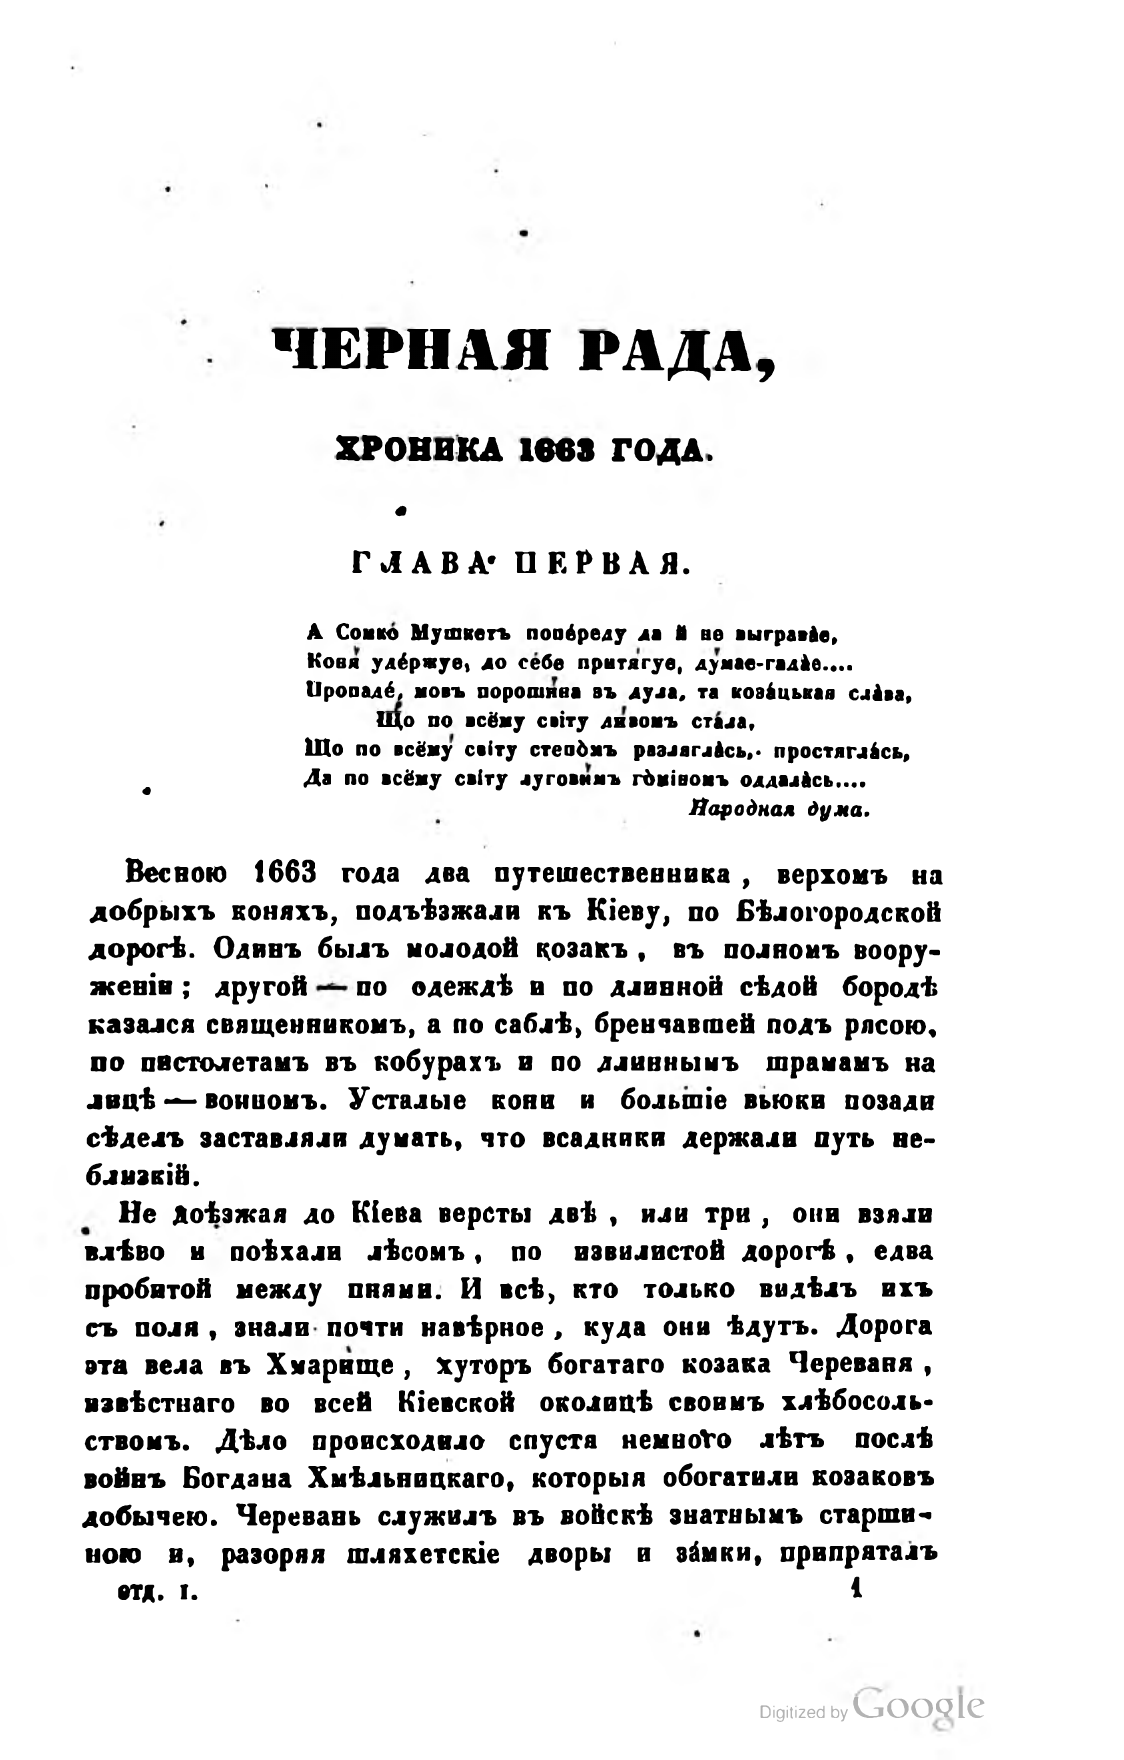ЧЕРНАЯ РАДА,
ХРОНИКА 1663 ГОДА.
ГЛАВА ПЕРВАЯ.
А Сомко Мушкетъ попереду да й не выгравае,
Коня удержуе, до себе притягуе, думае-гадае... 
Пропаде, мовъ порошина зъ дула, та козацькая слава, 
Що по всёму свиту дивомъ стала,
Що по всёму свиту степомъ разляглась, простяглась,
Да по всёму свиту луговимъ гоминомъ оддалась…
Народная дума.
Весною 1663 года два путешественника, верхомъ на добрыхъ коняхъ, подъѣзжали къ Кіеву, по Бѣлогородской дорогѣ. Одинъ былъ молодой козакъ, въ полномъ вооруженіи; другой — по одеждѣ и по длинной сѣдой бородѣ казался священникомъ, а по саблѣ, бренчавшей подъ рясою, по пистолетамъ въ кобурахъ и по длиннымъ шрамамъ на лицѣ — воиномъ. Усталые кони и большіе вьюки позади сѣделъ заставляли думать, что всадники держали путь неблизкій.
Не доѣзжая до Кіева версты двѣ, или три, они взяли влѣво и поѣхали лѣсомъ, по извилистой дорогѣ, едва пробитой между пнями. И всѣ, кто только видѣлъ ихъ съ поля, знали почти навѣрное, куда они ѣдутъ. Дорога эта вела въ Хмарище, хуторъ богатаго козака Череваня, извѣстнаго во всей Кіевской околицѣ своимъ хлѣбосольствомъ. Дѣло происходило спустя немного лѣтъ послѣ войнъ Богдана Хмѣльницкаго, которыя обогатили Козаковъ добычею. Черевань служилъ въ войскѣ знатнымъ старшиною и, разоряя шляхетскіе дворы и замки, припряталъ
отд. I.                                                         1
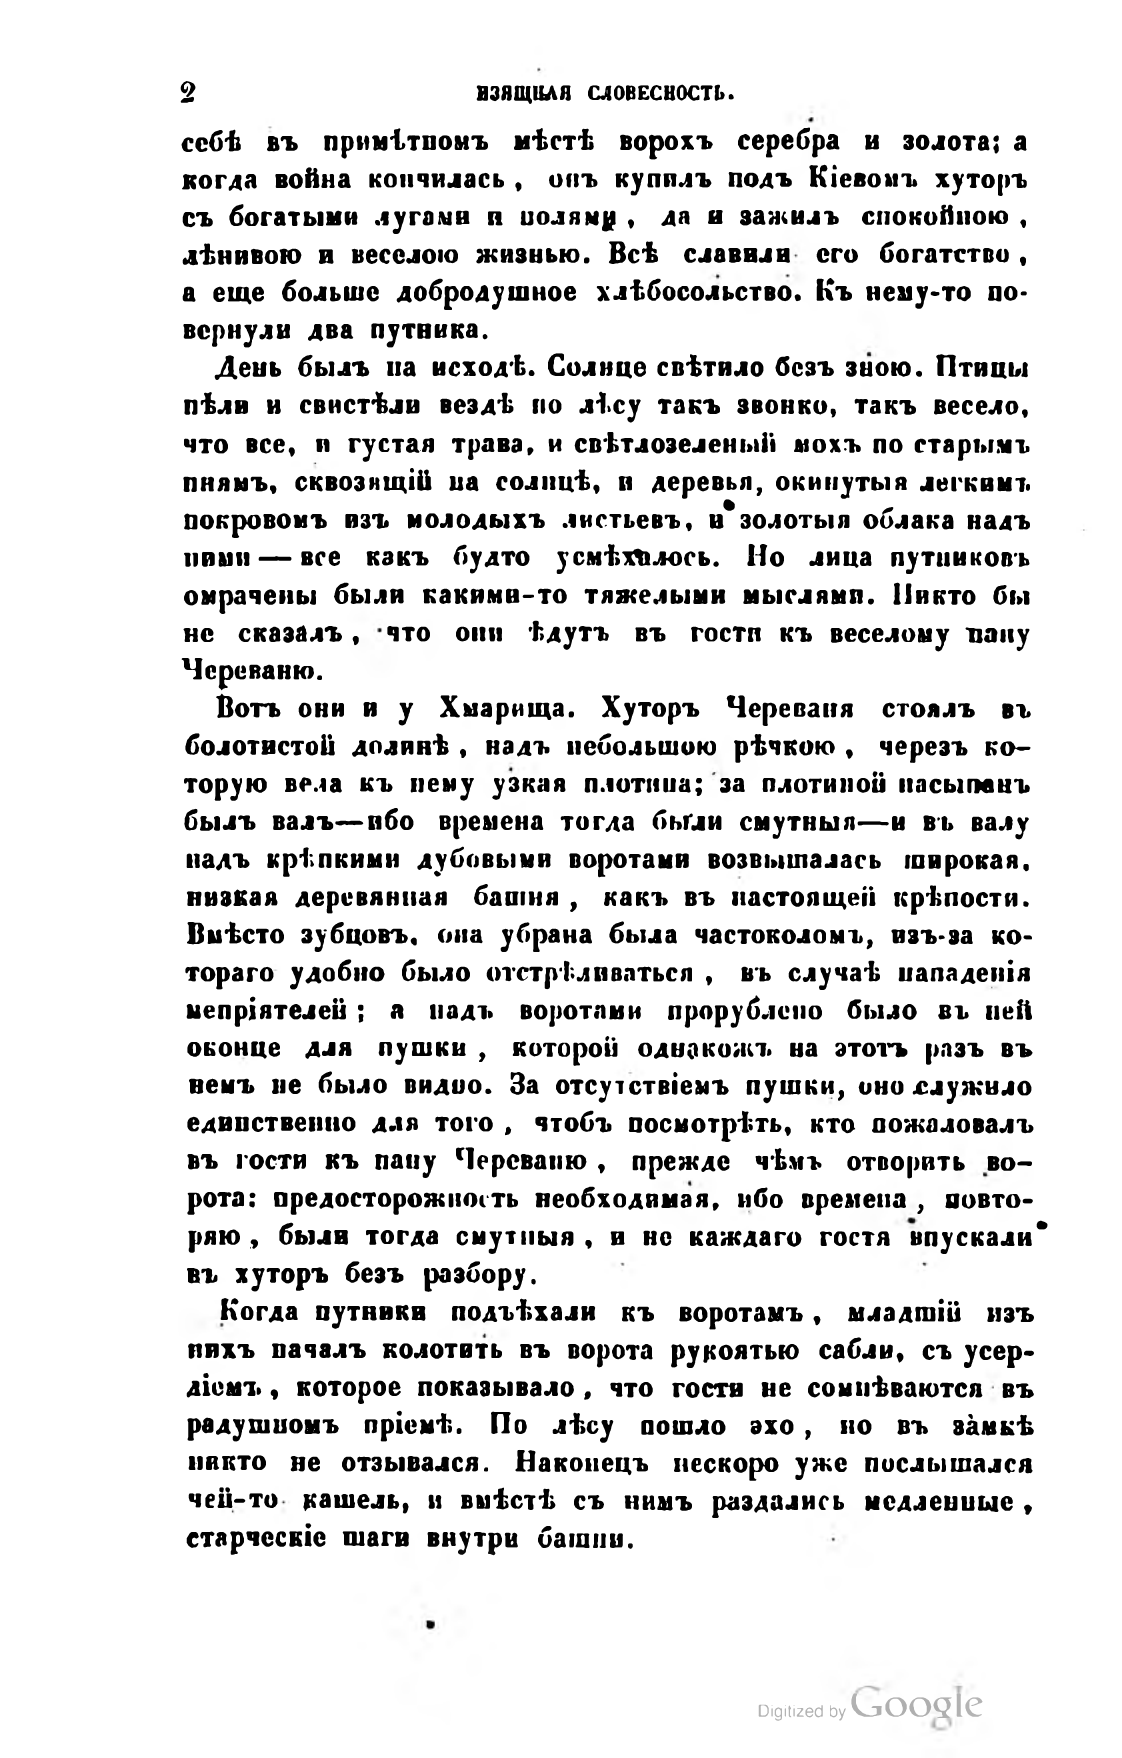2                    ИЗЯЩНАЯ СЛОВЕСНОСТЬ.
себѣ въ примѣтномъ мѣстѣ ворохъ серебра и золота; а когда война кончилась, онъ купилъ подъ Кіевомъ хуторъ съ богатыми лугами и полями, да и зажилъ спокойною, лѣнивою и веселою жизнью. Всѣ славили его богатство, а еще больше добродушное хлѣбосольство. Къ нему-то повернули два путника.
День былъ на исходѣ. Солнце свѣтило безъ зною. Птицы пѣли и свистѣли вездѣ по лѣсу такъ звонко, такъ весело, что все, и густая трава, и свѣтлозеленый мохъ по старымъ пнямъ, сквозящій на солнцѣ, и деревья, окинутыя легкимъ покровомъ изъ молодыхъ листьевъ, и золотыя облака надъ ними — все какъ будто усмѣхалось. Но лица путниковъ омрачены были какими-то тяжелыми мыслями. Никто бы не сказалъ, что они ѣдутъ въ гости къ веселому пану Череваню.
Вотъ они и у Хмарища. Хуторъ Череваня стоялъ въ болотистой долинѣ, надъ небольшою рѣчкою, черезъ которую вела къ нему узкая плотина; за плотиной насыпанъ былъ валъ — ибо времена тогда были смутныя — и въ валу надъ крѣпкими дубовыми воротами возвышалась широкая, низкая деревянная башня, какъ въ настоящей крѣпости. Вмѣсто зубцовъ, она убрана была частоколомъ, изъ-за котораго удобно было отстрѣливаться, въ случаѣ нападенія непріятелей; а надъ воротами прорублено было въ ней оконце для пушки, которой однакожъ на этотъ разъ въ немъ не было видно. За отсутствіемъ пушки, оно служило единственно для того, чтобъ посмотрѣть, кто пожаловалъ въ гости къ пану Череваню, прежде чѣмъ отворить ворота: предосторожность необходимая, ибо времена, повторяю, были тогда смутныя, и не каждаго гостя впускали въ хуторъ безъ разбору.
Когда путники подъѣхали къ воротамъ, младшій изъ нихъ началъ колотить въ ворота рукоятью сабли, съ усердіемъ, которое показывало, что гости не сомнѣваются въ радушномъ пріемѣ. По лѣсу пошло эхо, но въ замкѣ никто не отзывался. Наконецъ нескоро уже послышался чей-то кашель, и вмѣстѣ съ нимъ раздались медленные, старческіе шаги внутри башни.
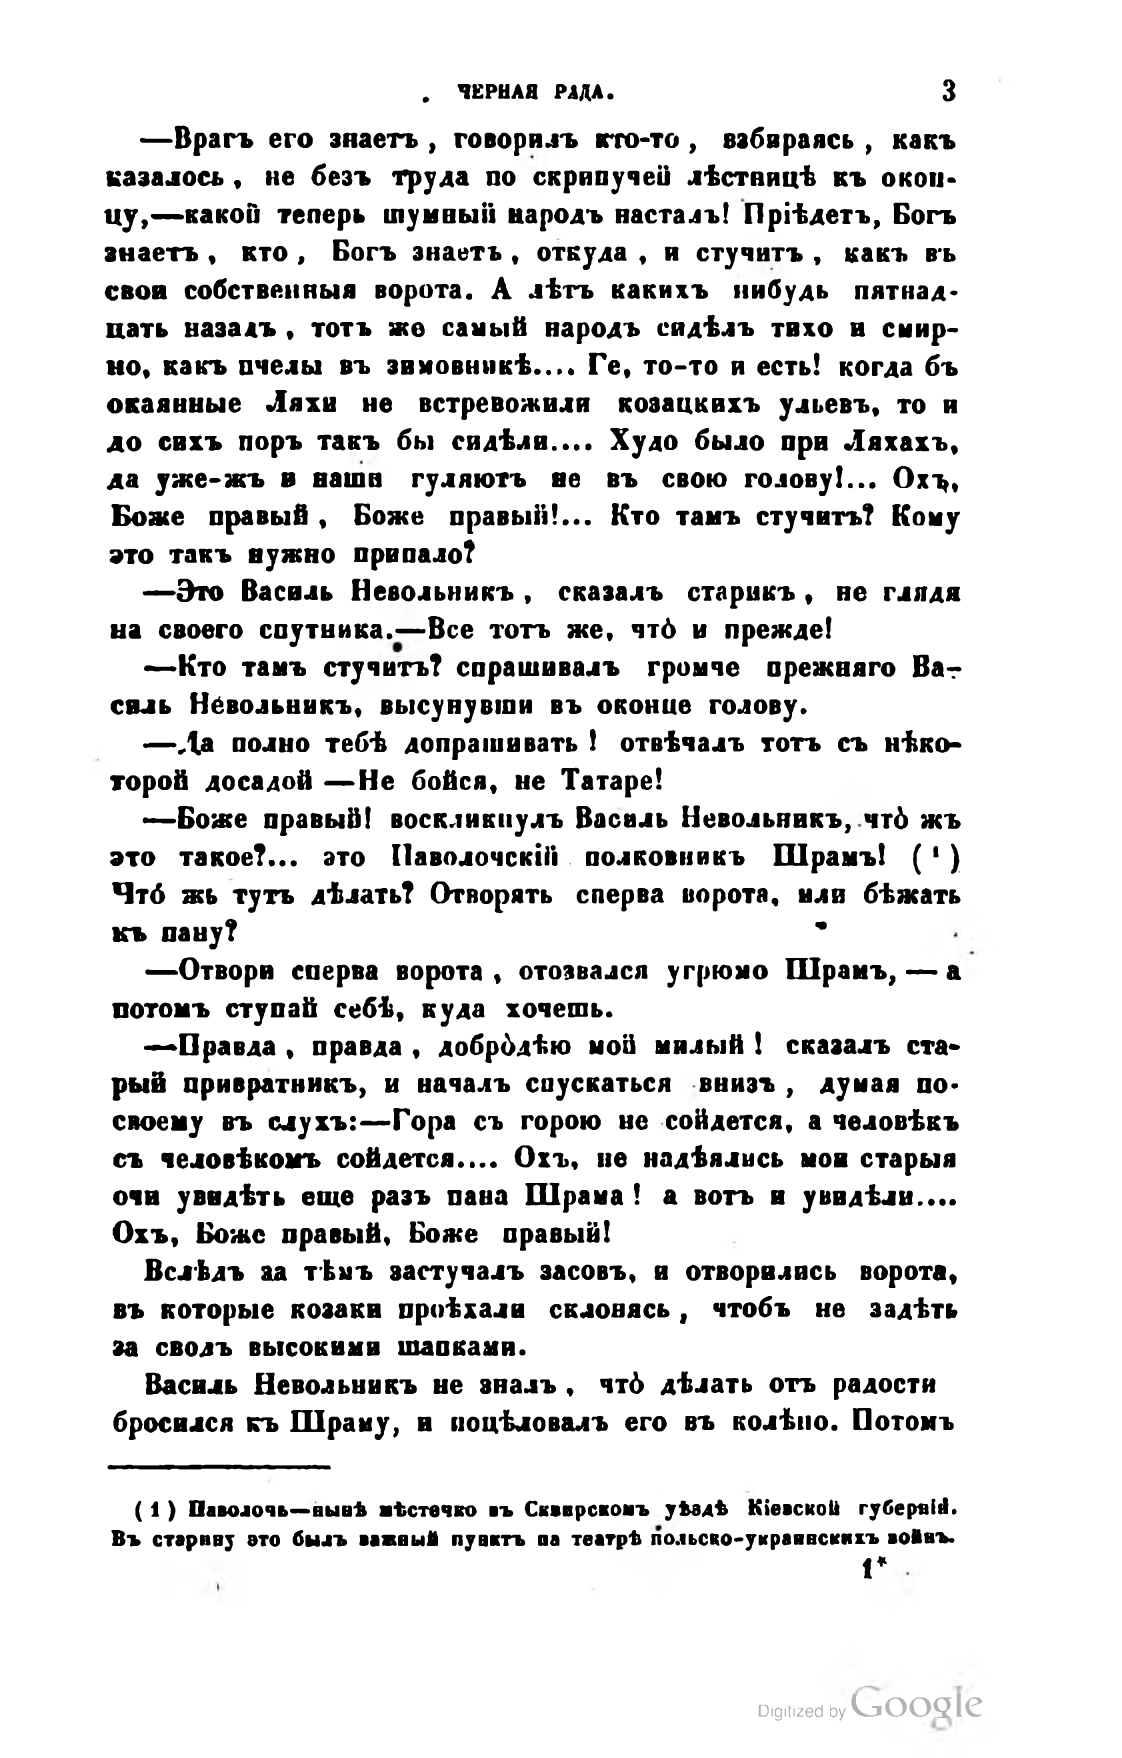ЧЕРНАЯ РАДА.                                3
— Врагъ его знаетъ, говорилъ кто-то, взбираясь, какъ казалось, не безъ труда по скрипучей лѣстницѣ къ оконцу, — какой теперь шумный народъ насталъ! Пріѣдетъ, Богъ знаетъ, кто, Богъ знаетъ, откуда, и стучитъ, какъ въ свои собственныя ворота. А лѣтъ какихъ нибудь пятнадцать назадъ, тотъ же самый народъ сидѣлъ тихо и смирно, какъ пчелы въ зимовникѣ... Ге, то-то и есть! когда бъ окаянные Ляхи не встревожили козацкихъ ульевъ, то и до сихъ поръ такъ бы сидѣли... Худо было при Ляхахъ, да уже-жъ и наши гуляютъ не въ свою голову!... Охъ, Боже правый, Боже правый!... Кто тамъ стучитъ? Кому это такъ нужно припало?
— Это Василь Невольникъ, сказалъ старикъ, не глядя на своего спутника. — Все тотъ же, что и прежде!
— Кто тамъ стучитъ? спрашивалъ громче прежняго Василь Невольникъ, высунувши въ оконце голову.
— Да полно тебѣ допрашивать! отвѣчалъ тотъ съ нѣкоторой досадой — Не бойся, не Татаре!
— Боже правый! воскликнулъ Василь Невольникъ, что жъ это такое?... это Паволочскій полковникъ Шрамъ! ( 1 ) Что жъ тутъ дѣлать? Отворять сперва ворота, или бѣжать къ пану?                                                     
— Отвори сперва ворота, отозвался угрюмо Шрамъ, — а потомъ ступай себѣ, куда хочешь.
— Правда, правда, добродѣю мой милый! сказалъ старый привратникъ, и началъ спускаться внизъ, думая по-своему въ слухъ: — Гора съ горою не сойдется, а человѣкъ съ человѣкомъ сойдется... Охъ, не надѣялись мои старыя очи увидѣть еще разъ пана Шрама! а вотъ и увидѣли… Охъ, Боже правый, Боже правый!
Вслѣдъ за тѣмъ застучалъ засовъ, и отворились ворота, въ которые козаки проѣхали склонясь, чтобъ не задѣть за сводъ высокими шапками.
Василь Невольникъ не зналъ, что дѣлать отъ радости бросился къ Шраму, и поцѣловалъ его въ колѣно. Потомъ
—
( 1 ) Паволочь — нынѣ мѣстечко въ Сквирскомъ уѣздѣ Кіевской губерніи. Въ старину это былъ важный пунктъ на театрѣ польско-украинскихъ войнъ.
1*
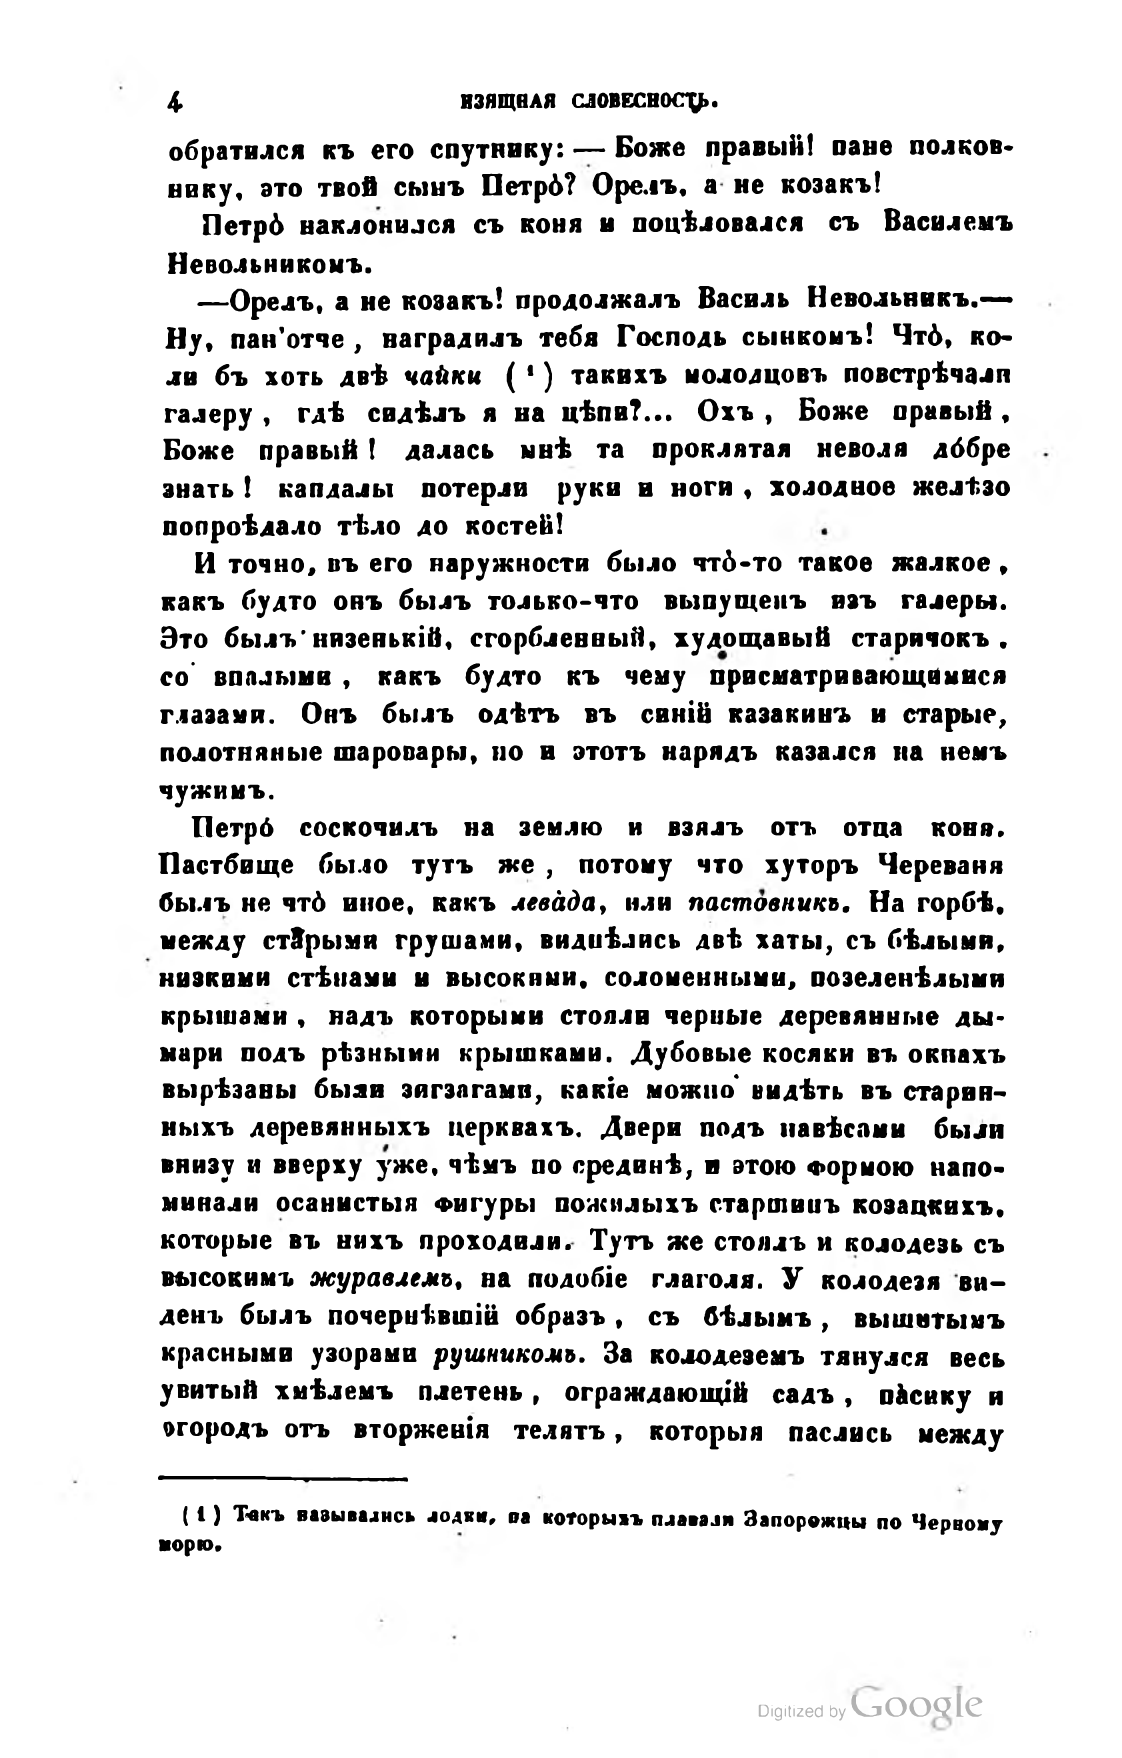4                          ИЗЯЩНАЯ СЛОВЕСНОСТЬ.
обратился къ его спутнику: — Боже правый! пане полковнику, это твой сынъ Петро? Орелъ, а не козакъ!
Петро наклонился съ коня и поцѣловался съ ВасилемъНевольникомъ.
— Орелъ, а не козакъ! продолжалъ Василь Невольникъ. — Ну, пан’отче, наградилъ тебя Господь сынкомъ! Что, коли бъ хоть двѣ чайки ( 1 ) такихъ молодцовъ повстрѣчали галеру, гдѣ сидѣлъ я на цѣпи?... Охъ, Боже правый, Боже правый! далась мнѣ та проклятая неволя добре знать! кандалы потерли руки и ноги, холодное желѣзо попроѣдало тѣло до костей!
И точно, въ его наружности было что-то такое жалкое, какъ будто онъ былъ только-что выпущенъ изъ галеры. Это былъ низенькій, сгорбленный, худощавый старичокъ, со впалыми, какъ будто къ чему присматривающимися глазами. Онъ былъ одѣтъ въ синій казакинъ и старые, полотняные шаровары, но и этотъ нарядъ казался на немъ чужимъ.
Петро соскочилъ на землю и взялъ отъ отца коня. Пастбище было тутъ же, потому что хуторъ Череваня былъ не что иное, какъ левада, или пастовникъ. На горбѣ, между старыми грушами, виднѣлись двѣ хаты, съ бѣлыми, низкими стѣнами и высокими, соломенными, позеленѣлыми крышами, надъ которыми стояли черные деревянные дымари подъ рѣзными крышками. Дубовые косяки въ окнахъ вырѣзаны были зигзагами, какіе можно видѣть въ старинныхъ деревянныхъ церквахъ. Двери подъ навѣсами были внизу и вверху уже, чѣмъ по срединѣ, и этою формою напоминали осанистыя фигуры пожилыхъ старшинъ козацкихъ, которые въ нихъ проходили. Тутъ же стоялъ и колодезь съ высокимъ журавлемъ, на подобіе глаголя. У колодезя виденъ былъ почернѣвшій образъ, съ бѣлымъ, вышитымъ красными узорами рушникомъ. За колодеземъ тянулся весь увитый хмѣлемъ плетень, ограждающій садъ, пасику и огородъ отъ вторженія телятъ, которыя паслись между
—
( 1 ) Такъ назывались лодки, на которыхъ плавала Запорожцы по Черному морю.